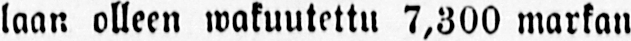laan olleen wakuutettu 7,300 markan
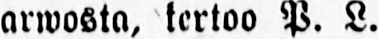arwosta, kertoo P. L.
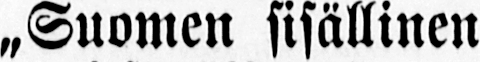„Suomen sisällinen
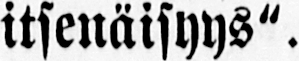itsenäisyys".
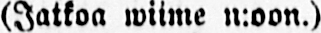(Jatkoa wiime n:oon.)
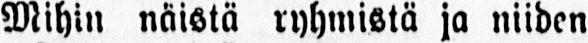Mihin näistä ryhmistä ja niiden
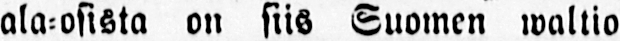ala-osista on siis Suomen waltio-
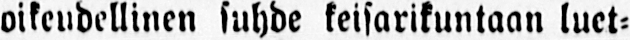oikeudellinen suhde keisarikuntaan luet-
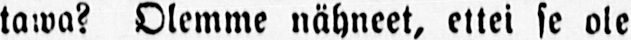tawa? Olemme nähneet, ettei se ole
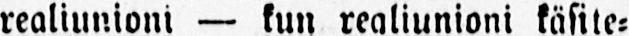realiunioni — kun realiunioni käsite-
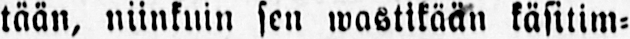tään, niinkuin sen wastikään käsitim-
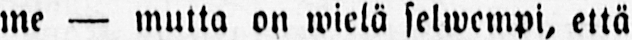me — mutta on wielä selwempi, että
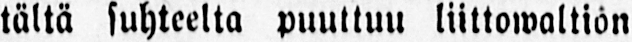tältä suhteelta puuttuu liittowaltion
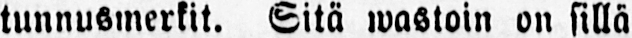tunnusmerkit. Sitä wastoin on sillä
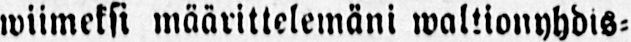wiimeksi määrittelemäni waltionyhdis-
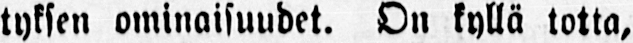tyksen ominaisuudet. On kyllä totta,
